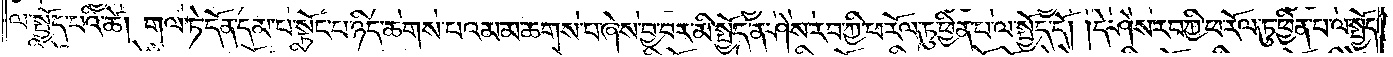ལ་སྤྱོད་པའི་ཚེ། གལ་ཏེ་དོན་དམ་པ་སྟོང་པ་ཉིད་ཆགས་པའམ་མ་ཆགས་པ་ཞེས་བྱ་བར་མི་སྤྱོད་ན་ཤེས་རབ་ཀྱི་ཕ་རོལ་ཏུ་ཕྱིན་པ་ལ་སྤྱོད་དོ། །དེ་ཤེས་རབ་ཀྱི་ཕ་རོལ་ཏུ་ཕྱིན་པ་ལ་སྤྱོད་
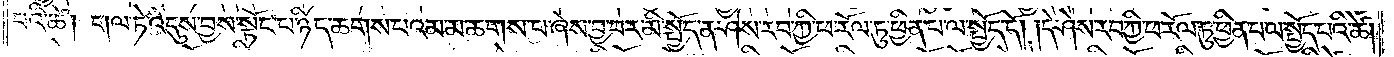པའི་ཚེ། གལ་ཏེ་འདུས་མ་བྱས་སྟོང་པ་ཉིད་ཆགས་པའམ་མ་ཆགས་པ་ཞེས་བྱ་བར་མི་སྤྱོད་ན་ཤེས་རབ་ཀྱི་ཕ་རོལ་ཏུ་ཕྱིན་པ་ལ་སྤྱོད་དོ། །དེ་ཤེས་རབ་ཀྱི་ཕ་རོལ་ཏུ་ཕྱིན་པ་ལ་སྤྱོད་པའི་ཚེ།
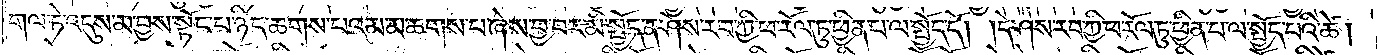གལ་ཏེ་འདུས་མ་བྱས་སྟོང་པ་ཉིད་ཆགས་པའམ་མ་ཆགས་པ་ཞེས་བྱ་བར་མི་སྤྱོད་ན་ཤེས་རབ་ཀྱི་ཕ་རོལ་ཏུ་ཕྱིན་པ་ལ་སྤྱོད་དོ། །དེ་ཤེས་རབ་ཀྱི་ཕ་རོལ་ཏུ་ཕྱིན་པ་ལ་སྤྱོད་པའི་ཚེ།
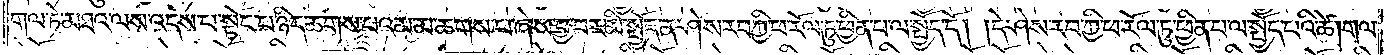གལ་ཏེ་མཐའ་ལས་འདས་པ་སྟོང་པ་ཉིད་ཆགས་པའམ་མ་ཆགས་པ་ཞེས་བྱ་བར་མི་སྤྱོད་ན་ཤེས་རབ་ཀྱི་ཕ་རོལ་ཏུ་ཕྱིན་པ་ལ་སྤྱོད་དོ། །དེ་ཤེས་རབ་ཀྱི་ཕ་རོལ་ཏུ་ཕྱིན་པ་ལ་སྤྱོད་པའི་ཚེ། གལ་
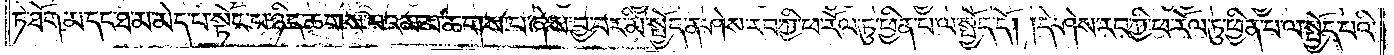ཏེ་ཐོག་མ་དང་ཐ་མ་མེད་པ་སྟོང་པ་ཉིད་ཆགས་པའམ་མ་ཆགས་པ་ཞེས་བྱ་བར་མི་སྤྱོད་ན་ཤེས་རབ་ཀྱི་ཕ་རོལ་ཏུ་ཕྱིན་པ་ལ་སྤྱོད་དོ། །དེ་ཤེས་རབ་ཀྱི་ཕ་རོལ་ཏུ་ཕྱིན་པ་ལ་སྤྱོད་པའི་
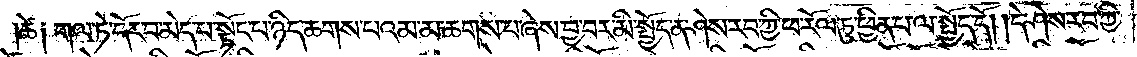ཚེ༑ གལ་ཏེ་དོར་བ་མེད་པ་སྟོང་པ་ཉིད་ཆགས་པའམ་མ་ཆགས་པ་ཞེས་བྱ་བར་མི་སྤྱོད་ན་ཤེས་རབ་ཀྱི་ཕ་རོལ་ཏུ་ཕྱིན་པ་ལ་སྤྱོད་དོ། །དེ་ཤེས་རབ་ཀྱི་
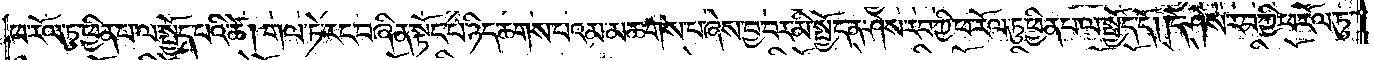ཕ་རོལ་ཏུ་ཕྱིན་པ་ལ་སྤྱོད་པའི་ཚེ། གལ་ཏེ་རང་བཞིན་སྟོང་པ་ཉིད་ཆགས་པའམ་མ་ཆགས་པ་ཞེས་བྱ་བར་མི་སྤྱོད་ན་ཤེས་རབ་ཀྱི་ཕ་རོལ་ཏུ་ཕྱིན་པ་ལ་སྤྱོད་དོ། །དེ་ཤེས་རབ་ཀྱི་ཕ་རོལ་ཏུ་
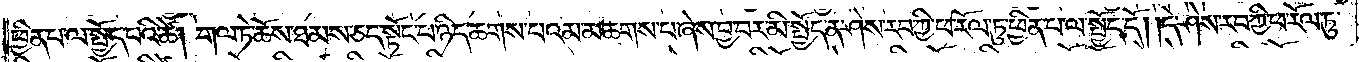ཕྱིན་པ་ལ་སྤྱོད་པའི་ཚེ། གལ་ཏེ་ཆོས་ཐམས་ཅད་སྟོང་པ་ཉིད་ཆགས་པའམ་མ་ཆགས་པ་ཞེས་བྱ་བར་མི་སྤྱོད་ན་ཤེས་རབ་ཀྱི་ཕ་རོལ་ཏུ་ཕྱིན་པ་ལ་སྤྱོད་དོ། །དེ་ཤེས་རབ་ཀྱི་ཕ་རོལ་ཏུ་
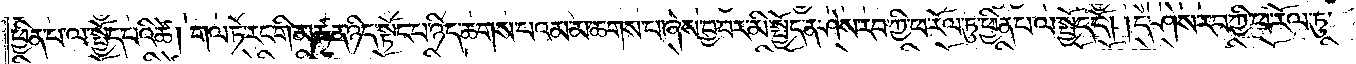ཕྱིན་པ་ལ་སྤྱོད་པའི་ཚེ། གལ་ཏེ་རང་གི་མཚན་ཉིད་སྟོང་པ་ཉིད་ཆགས་པའམ་མ་ཆགས་པ་ཞེས་བྱ་བར་མི་སྤྱོད་ན་ཤེས་རབ་ཀྱི་ཕ་རོལ་ཏུ་ཕྱིན་པ་ལ་སྤྱོད་དོ། །དེ་ཤེས་རབ་ཀྱི་ཕ་རོལ་ཏུ་
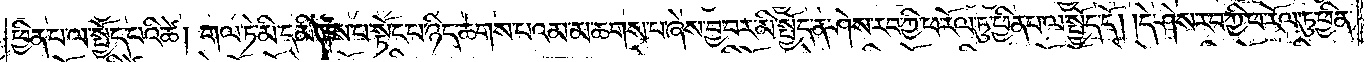ཕྱིན་པ་ལ་སྤྱོད་པའི་ཚེ། གལ་ཏེ་མི་དམིགས་པ་སྟོང་པ་ཉིད་ཆགས་པའམ་མ་ཆགས་པ་ཞེས་བྱ་བར་མི་སྤྱོད་ན་ཤེས་རབ་ཀྱི་ཕ་རོལ་ཏུ་ཕྱིན་པ་ལ་སྤྱོད་དོ། །དེ་ཤེས་རབ་ཀྱི་ཕ་རོལ་ཏུ་ཕྱིན་
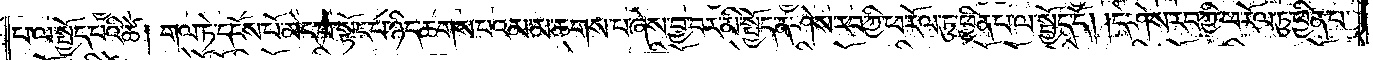པ་ལ་སྤྱོད་པའི་ཚེ། གལ་ཏེ་དངོས་པོ་མེད་པ་སྟོང་པ་ཉིད་ཆགས་པའམ་མ་ཆགས་པ་ཞེས་བྱ་བར་མི་སྤྱོད་ན་ཤེས་རབ་ཀྱི་ཕ་རོལ་ཏུ་ཕྱིན་པ་ལ་སྤྱོད་དོ། །དེ་ཤེས་རབ་ཀྱི་ཕ་རོལ་ཏུ་ཕྱིན་པ་
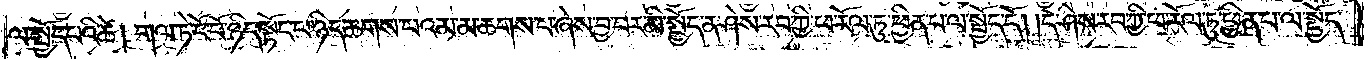ལ་སྤྱོད་པའི་ཚེ། གལ་ཏེ་ངོ་བོ་ཉིད་སྟོང་པ་ཉིད་ཆགས་པའམ་མ་ཆགས་པ་ཞེས་བྱ་བར་མི་སྤྱོད་ན་ཤེས་རབ་ཀྱི་ཕ་རོལ་ཏུ་ཕྱིན་པ་ལ་སྤྱོད་དོ། །དེ་ཤེས་རབ་ཀྱི་ཕ་རོལ་ཏུ་ཕྱིན་པ་ལ་སྤྱོད་
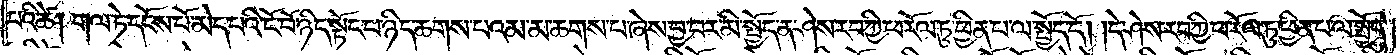པའི་ཚེ། གལ་ཏེ་དངོས་པོ་མེད་པའི་ངོ་བོ་ཉིད་སྟོང་པ་ཉིད་ཆགས་པའམ་མ་ཆགས་པ་ཞེས་བྱ་བར་མི་སྤྱོད་ན་ཤེས་རབ་ཀྱི་ཕ་རོལ་ཏུ་ཕྱིན་པ་ལ་སྤྱོད་དོ། །དེ་ཤེས་རབ་ཀྱི་ཕ་རོལ་ཏུ་ཕྱིན་པ་ལ་སྤྱོད་
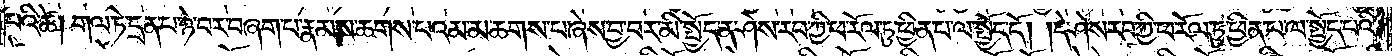པའི་ཚེ། གལ་ཏེ་དྲན་པ་ཉེ་བར་བཞག་པ་རྣམས་ཆགས་པའམ་མ་ཆགས་པ་ཞེས་བྱ་བར་མི་སྤྱོད་ན་ཤེས་རབ་ཀྱི་ཕ་རོལ་ཏུ་ཕྱིན་པ་ལ་སྤྱོད་དོ། །དེ་ཤེས་རབ་ཀྱི་ཕ་རོལ་ཏུ་ཕྱིན་པ་ལ་སྤྱོད་པའི་
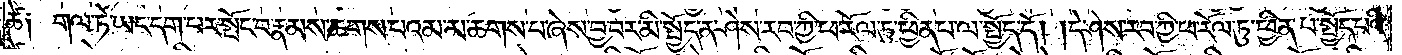ཚེ༑ གལ་ཏེ་ཡང་དག་པར་སྤོང་བ་རྣམས་ཆགས་པའམ་མ་ཆགས་པ་ཞེས་བྱ་བར་མི་སྤྱོད་ན་ཤེས་རབ་ཀྱི་ཕ་རོལ་ཏུ་ཕྱིན་པ་ལ་སྤྱོད་དོ། །དེ་ཤེས་རབ་ཀྱི་ཕ་རོལ་ཏུ་ཕྱིན་པ་ལ་སྤྱོད་པའི་
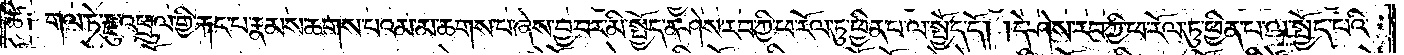ཚེ༑ གལ་ཏེ་རྫུ་འཕྲུལ་གྱི་རྐང་པ་རྣམས་ཆགས་པའམ་མ་ཆགས་པ་ཞེས་བྱ་བར་མི་སྤྱོད་ན་ཤེས་རབ་ཀྱི་ཕ་རོལ་ཏུ་ཕྱིན་པ་ལ་སྤྱོད་དོ། །དེ་ཤེས་རབ་ཀྱི་ཕ་རོལ་ཏུ་ཕྱིན་པ་ལ་སྤྱོད་པའི་
